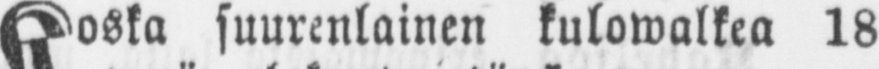Koska suurenlainen kulowalkea 18
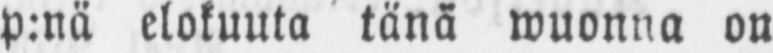p:nä elokuuta tänä wuonna on
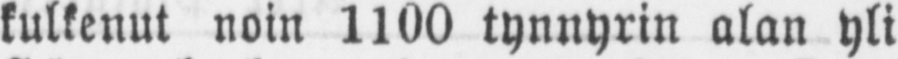kulkenut noin 1100 tynnyrin alan yli
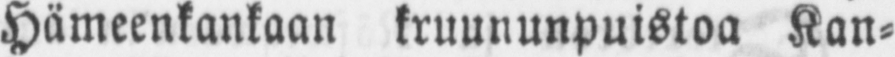Hämeenkankaan kruununpuistoa Kan-
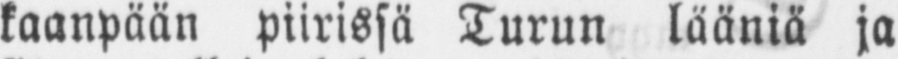kaanpään piirissä Turun lääniä ja
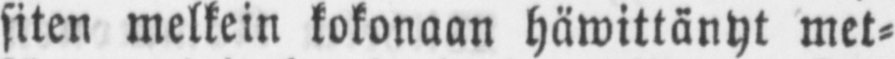siten melkein kokonaan häwittänyt met-
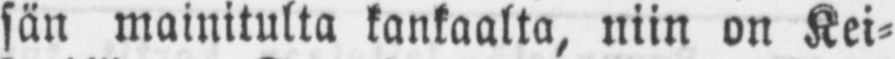sän mainitulta kankaalta, niin on Kei-
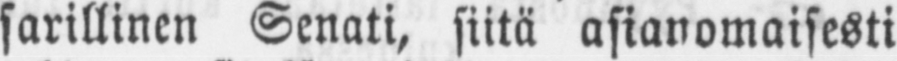sarillinen Senati, siitä asianomaisesti
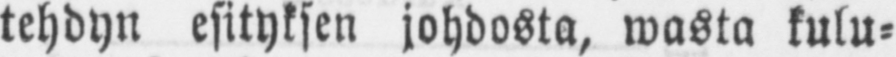tehdyn esityksen johdosta, wasta kulu-
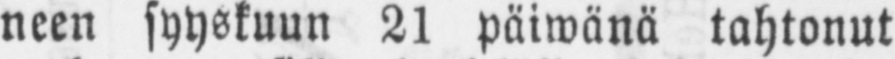neen syyskuun 21 päiwänä tahtonut
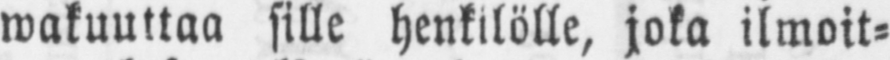wakuuttaa sille henkilölle, joka ilmoit-
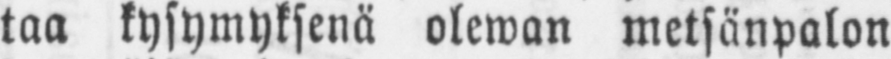taa kysymyksenä olewan metsänpalon
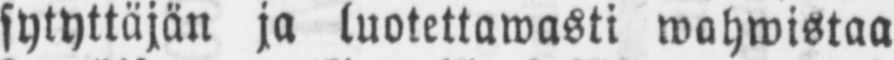sytyttäjän ja luotettawasti wahwistaa
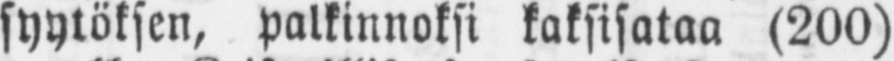syytöksen, palkinnoksi kaksisataa (200)
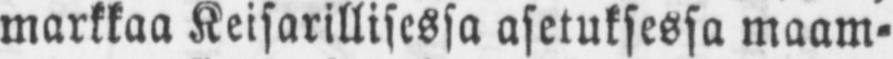markkaa Keisarillisessa asetuksessa maam-
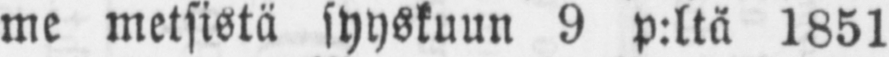me metsistä syyskuun 9 p:ltä 1851
